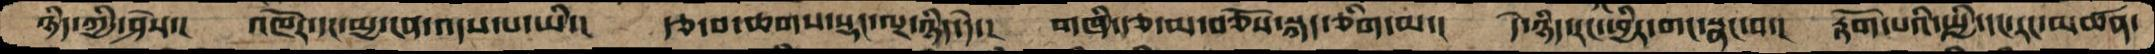ཉིད་ཀྱི་ཤེས་།  འཁོར་དང་མྱ་ངན་འདས་པ་ཡི་།  རྩ་བ་ཆགས་སྡང་ལྔ་ཉིད་དེ་།  གཞི་རྩ་མ་བཅོས་སྐད་ཅིག་མ་།  དེ་ཉིད་རང་ཕྱིར་གང་སྣང་བ་།  རྟོག་པའི་སྤྱི་དང་རང་མཚན་
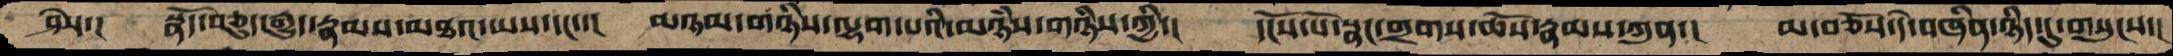ཤེས་།  སྣོད་བཅུད་རྒྱུད་རྣམས་མཐའ་ཡས་དང་་།  མཉམ་གཉིས་ལྷག་པའི་མཉཾས་གཉིས་ཀྱི་།  དངོས་པོ་སྣང་གྲགས་ཆོས་རྣམས་ཀུན་།  མ་བཅོས་དེ་བཞིན་ཉིད་དུ་གསུངས་།
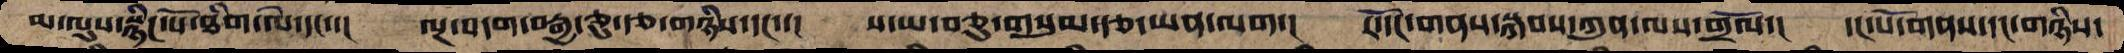མ་ལུས་སྙིང་པོ་ཐིག་ལེ་དང་་།  ལྔ་བདག་བརྒྱ་ཅུ་རྩ་གཉིས་དང་་།  ས་ཡ་བཅུ་གསུམ་རྩ་ཡན་ལག་།  རོ་དང་གནས་སྐབས་ཀུན་ལས་གྲོལ་།  དང་པོ་གནས་དང་གཉིས་
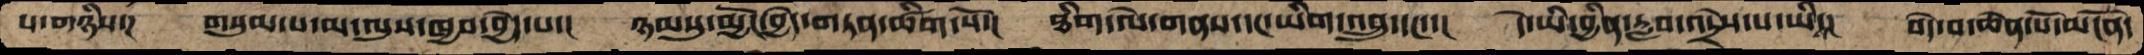པ་གཉིས་།  གསུམ་པ་མ་ལུས་ཁྱབ་བྱེད་པ་།  ཉམསུ་མྱོང་བྱེད་གཏན་ཚིག་སོ་།  ཐིག་ལེ་གནས་དང་ཡིག་འབྲུ་དང་་།  དེ་ཡི་བྱིན་རླབ་འདྲེས་པ་ཡི་།  བདེ་བ་ཆེན་པོ་མངོན་
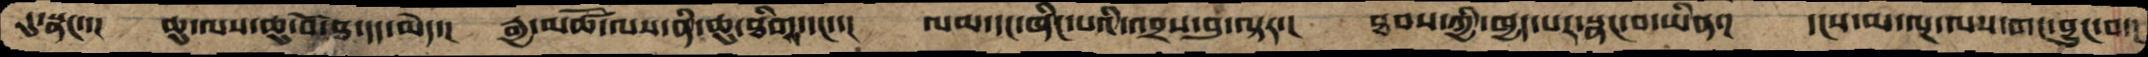དུ་སྣང་་།  ཆུ་ལས་ཆུ་བོ་ཐ་དད་མེད་།  རྒྱ་མཚོ་ལས་ནི་ཆུ་ཐིགས་དང་་།  ལམ་དང་ཞིང་པའི་འབྲས་བུ་ལྟར་།  ཐབས་ཀྱི་ཁྱད་པར་སྣང་བ་ཡིན་།  དངས་མ་ལྔ་ལས་གང་བྱུང་བ་།
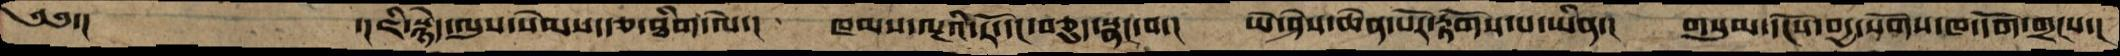༄༅་།        ་། ཇི་སྙེད་ལུས་སེམས་རྩ་ཐིག་ལེ་།  ཁམས་ལྔའི་རོ་དང་བཅུད་སྣང་བ་།  ཡེ་ཤེས་ཆེན་པོར་རྟོགས་པ་ཡིན་།  གསུམ་དངོས་བདྱ་སོགས་ཁ་དོག་གྲངས་།
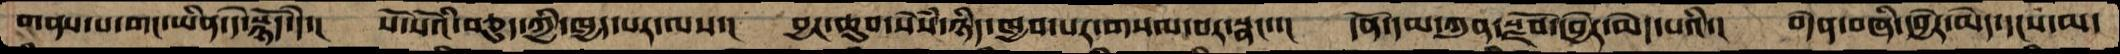གནས་པ་གང་ཡིན་དེ་སྙོད་དེ་།  སོ་སོའི་བཅུད་ཀྱི་ཁྱད་པར་ལས་།  བྱང་ཆུབ་སེཾས་ཉིད་ཁྱབ་པར་གསལ་བར་སྣང་་།  དོན་དམ་ཀུན་སྫོབ་དབྱེར་མེད་པའི་།  བདེན་བཞི་དབྱེར་མེད་དངས་མ་
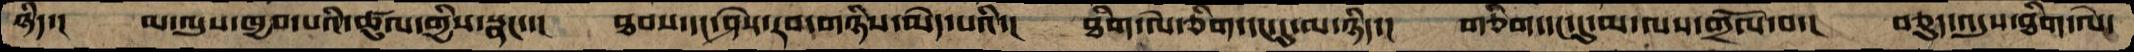ཉིད་།  མ་ལུས་ཁྱབ་པའི་ཚུལ་གྱིས་སྣང་་།  ཐབས་དང་ཤེས་རབ་གཉིས་མེད་པའི་།  ཐིག་ལེ་ཅིག་དང་དུ་མ་ཉིད་།  གཅིག་དང་དུ་མ་ལས་གྲོལ་བ་།  བཅུད་འདུས་ཐིག་ལེ་
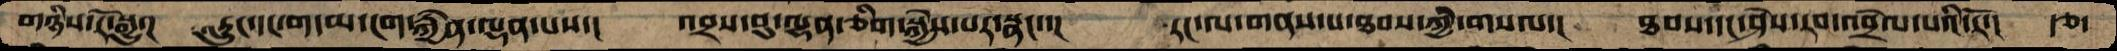གཉིས་རོ་སྒྱུ་།  རླུང་དང་གདམ་ངག་རྐྱེན་ལྡན་པས་།  འབྲས་བུ་ལྷན་ཅིག་སྐྱེས་པར་སྣང་་།  རང་ལ་གནས་པ་ཐབས་ཀྱི་གསལ་།  ཐབས་དང་ཤེས་རབ་འབྲེལ་པའི་རོ་།  རྩ་
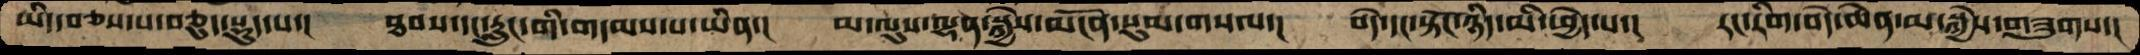ཡིད་བཅས་པ་བཅུད་སྡུད་པ་།  ཐབས་དང་རླུང་གི་གདམས་པ་ཡིན་།  མ་ལུས་ལྷན་སྐྱེས་མངོན་སུམ་གསལ་།  བདེ་དང་སྟོང་ཉིད་མི་ཕྱེད་པ་།  རང་རིག་བདེ་ཆེན་མ་སྐྱེས་གཟུགས་།
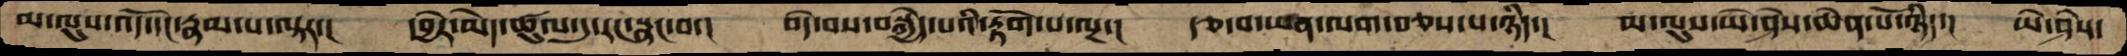མ་ལུས་འོད་དང་རྣམ་པ་ལྟར་།  དབྱེར་མེད་ཚུལ་དུ་རང་སྣང་བ་།  བདེ་བས་བསྐྱེད་པའི་རྟོག་པ་ལྔ་།  རྩ་བ་ཡན་ལག་བཅས་པ་ཉིད་།  མ་ལུས་ཡེ་ཤེས་ཆེན་པོ་ཉིད་།  ཡེ་ཤེས་
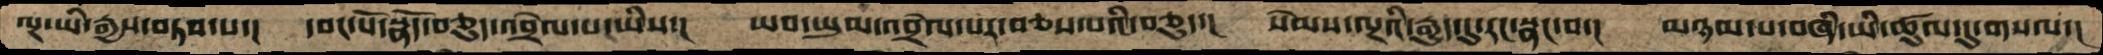ལྔ་ཡི་རྒྱས་བཏབ་པ་།  དབང་པོ་སྣོད་བཅུད་འབྲེལ་པ་ཡིས་།  ཡབ་ཡུམ་འབྲེལ་པར་བཅས་པའི་བཅུད་།  སེམས་ལྔའི་རྒྱུད་དུ་རང་སྣང་བ་།  མཉམ་པ་བཞི་ཡི་ཚུལ་དུ་གསལ་།
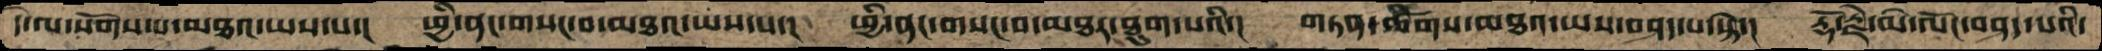དེ་ལ་སོགས་པ་མཐའ་ཡས་པ་།  ཕྱི་ནང་གསང་བ་མཐའ་ཡས་པ་།  ཕྱི་ནང་གསང་བ་མཐར་ཐུག་པའི་།  གཏན་ཚིགས་མཐའ་ཡས་བཤད་པ་སྟེ་།  རྡོ་རྗེ་མེ་ལོང་བཤད་པའི་
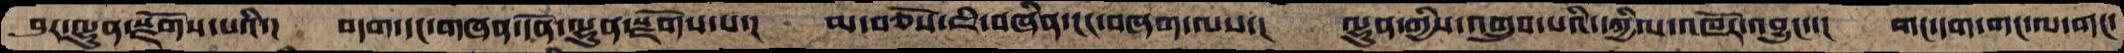བུར་ལྷུན་སྫོགས་པའི་།  བདག་དང་གཞན་དོན་ལྷུན་སྫོགས་པ་།  མ་བཅོས་ཇི་བཞིན་ངང་གཞག་ལས་།  ལྷུན་གྱིས་འགྲུབ་པའི་དཀྱིལ་འཁོར་འབྱུང་་།  གང་དག་གང་ལ་གང་
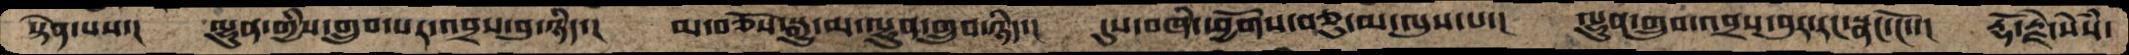སྟེན་པས་།  ལྷུན་གྱིས་གྲུབ་པར་འབྲས་བུ་ཉིད་།  མ་བཅོས་སྒྱུ་མ་ལྷུན་གྲུབ་ཉིད་།  དུས་བཞི་ཕྱོགས་བཅུ་མ་ལུས་པ་།  ལྷུན་གྲུབ་འབྲས་བུར་རང་སྣང་ངོ་་།  རྡོ་རྗེ་སེཾས་
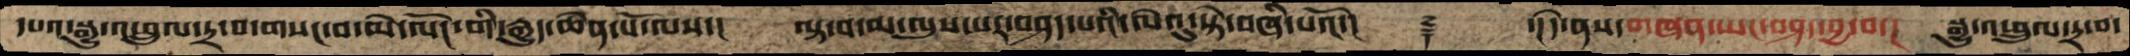དཔའ་སྒྱུ་འཕྲུལ་དྲ་བ་གསང་བ་མེ་ལོང་གི་རྒྱུད་ཆེན་པོ་ལས་།  ལྟ་བ་མ་ལུས་པར་བཤད་པའི་ལེའུ་སྟེ་བཞི་པའོ་།   ༈  ་།དེ་ནས་གཞན་ཡང་བཤད་བྱ་བ་།  སྒྱུ་འཕྲུལ་དྲ་བ་
